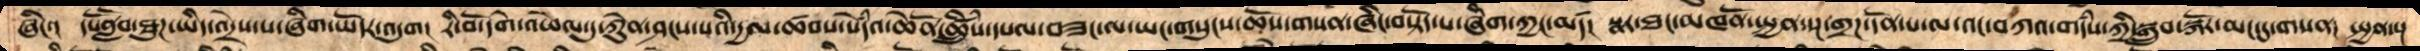ཞིང་།  དཔོནློབ་ཐུཌ་ཡིད་འདྲེས་པ་ཞིག་ཡོདར་འདུག།  རི་བོ་དགེ་འཕེལ་དུ་ཀེུན་ཤངས་པའི་དྱལ་ཚབས་སེཾདའ་ཆེནོ་ཚྲིུཾས་དཔལ་བཟང་ལ་ཡང་གསུངས་ཆོས་གསན་ཞིང་བསྟོད་པ་ཞིག་ཀྱང་མཛད།  སྣར་ཐང་མཁནོ་སྤྱན་སྔ་གྲཌ་དོན་པ་ལ་འང་བཀའ་གདཾས་ཀྱི་སྒྲུབ་སྐོར་མང་དུ་གསན།  སྤྱན་སྔ་
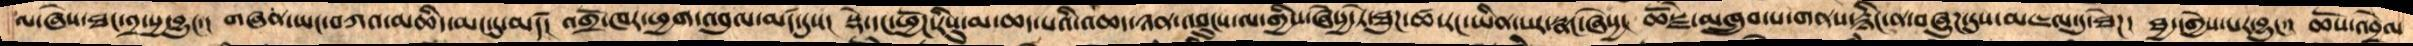ལ་ཞེས་ཐང་༢་པྱ་བྱུང་།  གཞན་ཡང་བཀའ་མཆིད་མང་དུ་མཛད།  འགྲོ་ཁར་ཕྱག་འབུལ་མཛད་དུས།  སྡེ་དང་ཕྱོཌ་རིསུ་མ་ཆད་པའི་འཆད་ཉན་འབུངས་ལ་གྱིས་ཞེསྱ་ཏེ་ཐུཌ་ཚ་རང་ཡིན་པར་སྣང་ཞེསྱ།  ཆོསྗེ་མཁྲུབ་པ་གནས་རྙིང་ན་བཞུཌ་དུས་མཇལ་དུ་ཐེཌ།  ཐྱ་དགྱེས་པར་བྱུང་། ཆོས་འབྲེལ
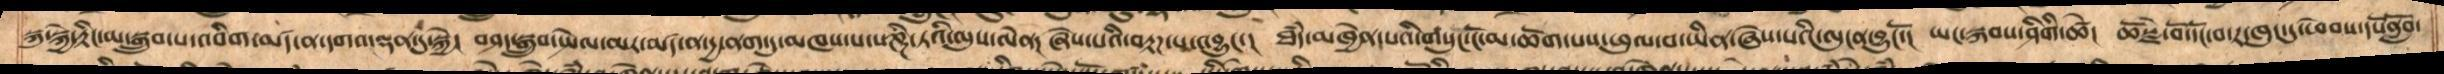སྐུ་སྐྱེ་རྟིང་མ་སྒྲུབ་པ་འབིག་མཛད་ན་དགའ་ལྡན་དུ་སྐྱེ།  བཤད་སྒྲུབ་སྤེལ་མར་མཛད་ན་དྱ་ནག་དུ་མཁས་པ་པཎྚི་ཏའི་ལུས་ལེན།  ཞེས་པའི་བརྟཌ་པ་འབྱུང་།  ཐཾད་མཁྱེན་པའི་གསུང་ངོ་མ་ཆོག་པས་ཕུལ་བ་ཡིན་ཞེས་པའི་ལུངན་བྱུང་ངོ་།  ཡང་སྐབས་ཤིགི་ཚེ།  ཆོསྗེ་བོ་དོང་བ་ར་ཁུད་དུ་ཕེབས་དཔོནློབ་
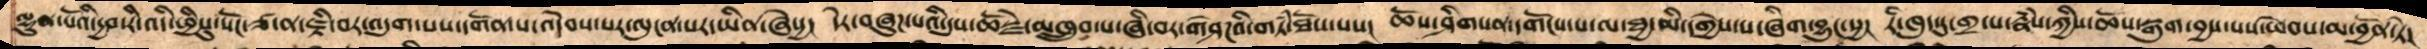ལྷུན་པོའི་དྱབ་རི་འདི་ཕྱིསུ་སོང་ཙ་ན་ཇྟི་བར་འདུག་པས་དགོན་པ་འདེབས་པར་ལུངན་པ་ཡིན་ཞེསྱ།  དེར་བཞུཌ་པའི་དུས་ཆོསྗེ་མཁྲུབ་པ་ཞི་བར་གཤེཌའི་གཏཾ་ཐོས་པས།  ཆོས་ཤིག་གསན་དགོངས་པ་ལ་ཐྱ་མི་དགྱེས་པ་ཞིག་བྱུང་སྱ།  རི་ཁུངསུ་གྲ་པ་རྣཾས་ཀྱིས་ཆོས་སྒུག་བྱས་པས་ཕེབས་མ་བྱོན་ཏེ།
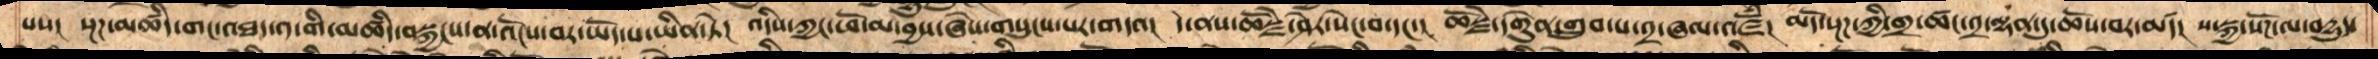པས།  སྔཌ་མཚན་ཉིད་གང་འཐད་༡་གི་འཚིདབསྐྱངས་ན་འོངས་བར་ཡོད་པ་ཡིན་ཏེ།  འདིས་ཀྱང་ཕོ་མ་བྱས་ཞེས་གསུངས་པར་གདའ།  དེ་ནས་ཆོསྗེ་ཤེར་སེང་བ་དང་།  ཆོསྗེ་དགེུན་གྲུབ་པ་༢་ཞལ་འཛོཾ།  མདོ་སྔཌ་ཀྱི་གྲ་ཚང་༢་ལྷན་དུ་ཆོས་བར་མཛད།  ས་སྐྱ་སོཌ་ལ་བདྱུད་
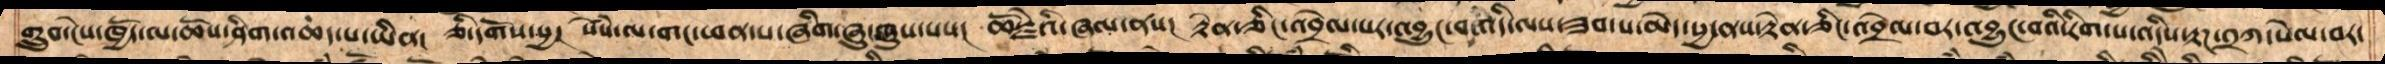གྲུབ་ངེས་ཁྱོད་ལ་ཆོས་ཤིག་འཆད་པ་ཡིན།  ཅི་དགོས་སྱ།  སེཾས་ལ་ཕན་པ་ཞིག་ཞུ་ཞུས་པས།  ཆོསྗེའི་ཞལ་ནས།  རྟེན་ཅིང་འབྲེལ་བར་འབྱུང་བ་འདི་ལས་ཟབ་པ་མེད་སྱ་ནས་རྟེན་ཅིང་འབྲེལ་བར་འབྱུང་བའི་རིག་པ་འདིས་རྟཌ་༢ཀ་སེལ་བར་
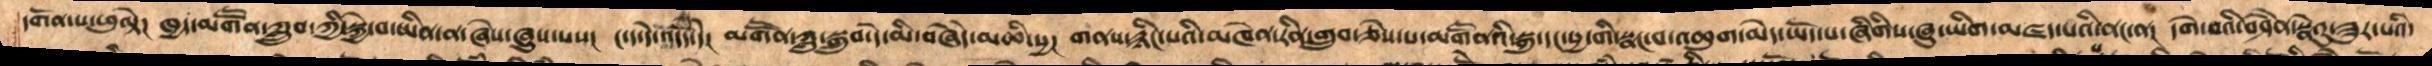དགོན་པ་ཕུལྟེ།  ཁྱད་མགཽན་ཀླྲུབ་ཀྱི་སྐྱེ་བ་ཡིན་ན་ཞེས་ཞུས་པས།  ང་ད་དེ་འདོད་དེ།  མགོནོ་ཀླུ་སྒྲུབ་་དེ་མི་བཞེདེ་མཆི་སྱ།  གནས་རྙིང་པའི་མཁེན་རིན་གྲུབ་ཅེས་པ་མགོནོའི་སྐུ་དང་སྱ་གི་སྣང་བ་འཆུག་མེད་ཡོད་པ་ཞིགིས་ཞུ་ཡིག་མཛད་པའི་ནང་ན།  དགེ་བའི་བཤཻན་སྣེའུ་ཟུར་པའི་
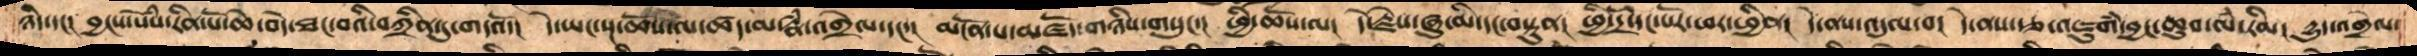ཉིད་དང་།  བྱངས་སེཾས་རིན་པོ་ཆེ་བདེ་ཐང་བའི་བཀྲིན་དུ་གདའོ།  དེ་ཡང་སྔ་ཆོས་ལ་ཚད་མ་རྣཾ་འགྲེལ་དང་།  མངོན་པ་མཛོད་གཉིས་གསུང་།  ཕྱི་ཆོས་ལ།  དེ་རྗེས་ཞུ་མི་དང་བསྟུན།  ཕྱི་དྲོ་དང་པོར་ཕར་ཕྱིན།  དེ་ནས་འདུལ་བ།  དེ་ནས་རྩ་འཇུགཾ་བྱང་ཆུབ་ལཾ་རིམ།  དྱུད་འགྲེལ་
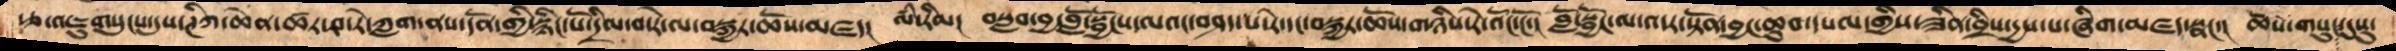རྩ་འཇུག་གསུངས་དུས་ཊིཀ་ཆེན་ཚར་བ་རེ་ཀླག་ནས་དོན་གྱི་སྙིང་པོ་དྲིལ་བ་རེ་ལ་བསྐྱར་ཆོས་མཛད།  ལཾ་རིམ།  བསླབ་བྱ་བློ་སྦྱོངས་ལའང་བཤད་པ་རེ་དང་བསྐྱར་ཆོས་གཉིས་རེ་འོང་ངོ་།  བློ་སྦྱོང་ལ་འདར་སྟོན་བྱང་ཆུབ་དཔལ་གྱིས་ཟིན་བྲིས་དྱས་པ་ཞིག་མཛད་སྣང་།  ཆོས་གསུང་དུསུ་
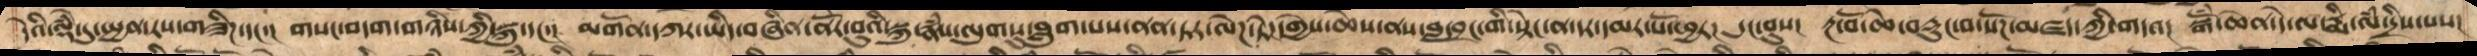དེའི་ལྡེཾ་དུ་སྤྱན་རས་གཟིཌ་དང་།  གསང་བདག་གཉིས་ཀྱི་སྐུ་དང་།  མགོན་དཀར་ཡིད་བཞིན་ནོར་བུའི་སྐུ་རྣཾས་ལུགསུ་བླུག་པས་ནན་ཏར་ལེཌ་ཏེ་དགྱེས་ཆེས་ནས་བླ་བྲང་གི་སྟེང་ན་དར་དམར་པོ་ཕྱར།  དུང་བུས།  རྔ་བོ་ཚེ་བརྡུང་བ་སོཌ་མཛད་ཀྱི་གདའ།  སྒོཾ་ཆེན་དེ་ལ་རྨི་ལཾ་དྲིས་པས།
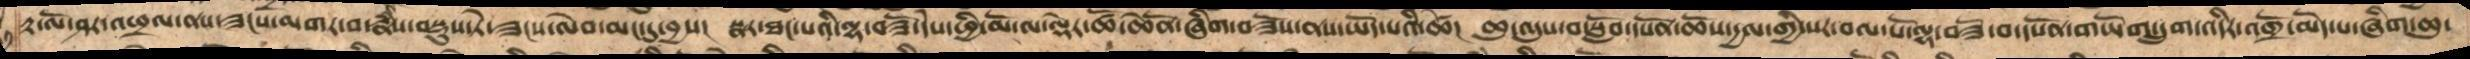རྟ་ལོ་ཤར་འཕྲལ་ནས་ཟངས་མགར་བ་རྣཾས་བསྡུས་ཏེ་ཟངས་ལེབ་མང་དུ་བྱས།  སྣར་ཐང་པའི་ལྷ་བཟོ་དེས་ཕྱི་མོ་ལ་ལྡེར་ཚོ་ཆེནོ་ཞིག་བཟོས་ནས་ཡོད་པའི་ཚེ།  ཆུ་འདུས་བ་སློབ་དཔོན་ཆོས་དྱལ་གྱི་སར་བལ་པོ་ལྷ་བཟོ་བ་དཔོན་གཡོག་དྲུག་འདིར་འགྲོ་མེད་པ་ཞིག་ཆུ་
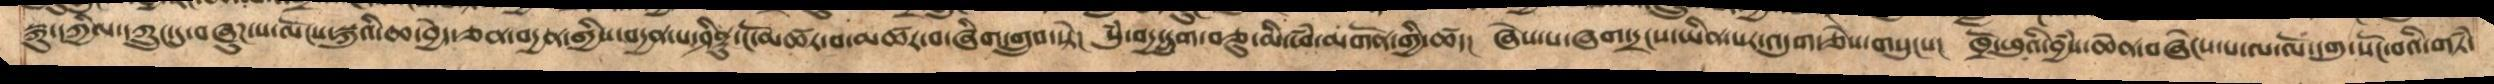སྐུ་དཀྱིལ་ཀྲུང་དུ་བཞུཌ་པ་ལོངས་སྐུའི་ཆ་བྱེད་ཅན་བདྱན་གྱིས་བདྱན་པ་ཤིནྟུ་ངོ་མཚར་བ་མཚར་བ་ཞིག་གྲུབ་སྟེ།  སུཾ་བདྱ་དྲུག་བཅུ་མི་ཕཾ་མགོན་གྱི་ཚད།  ཞེས་པ་ཞག་དྲངས་ཡིན་པར་འདུག་ཅེས་གསུངས།  ཁྲོ་ཕུའི་བྱཾས་ཆེན་བཞེངས་པ་ལ་ལོ་དགུ་སོང་བའི་གཏཾ་
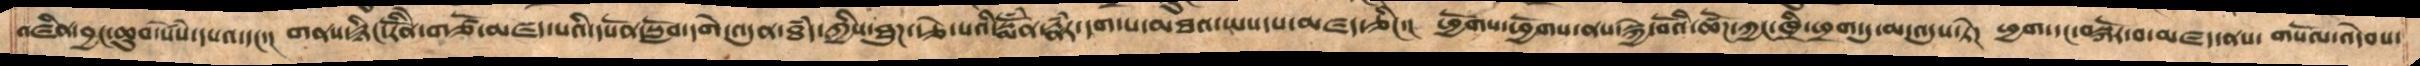འཛིན་བྱང་ཆུབ་སེཾས་དཔའ་དང་།  གནས་རྙིང་རིནོེ་གཙོ་མཛད་པའི་དཔོན་སློབ་དགེ་འདུན་ཐཾད་ཀྱིས་ཐུཌ་རྩེ་པའི་སྨོཾན་རྣཾར་དག་པ་མཐའ་ཡས་པ་མཛད་ཅིང་།  ཕྱོགས་ཕྱོགས་ནས་སྐྱེ་བོའི་ཚོཌ་ཀྱང་ཁྲི་ཕྲག་དུ་མ་འདུས་ཏེ། ཕྱག་དང་བསྐོར་བ་མཛད་ནས་ གསོལ་འདེབས་
